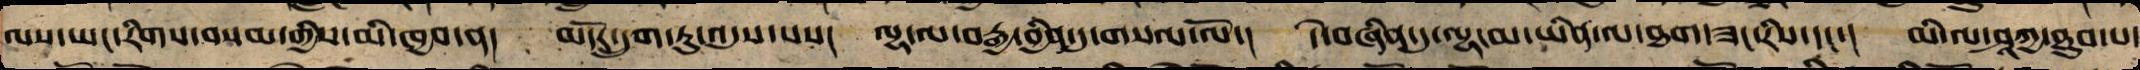ལས་ཡང་རིགས་བསམ་གྱིས་མི་ཁྱབ་ན། མདོར་དྲུག་ཏུ་འདུས་པས། ལྷ་ལ་བརྒྱ་བྱིན་དུ་གསལ་ལོ་། དེ་བཞིན་དུ་ལྷ་མ་ཡིན་ལ་ཐགས་བཟང་རིས་དང་། མི་ལ་ཤཱཀྱ་ཐུབ་པ་
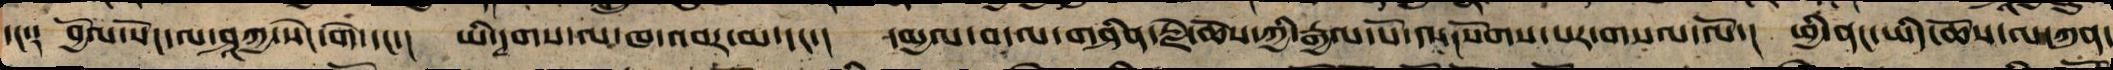དང༑ བྱོལ་སོང་ལ་ཤཱཀྱ་སེང་གེ་དང་། ཡི་དྭགས་ལ་ཁ་འབར་མ་དང་། དམྱལ་བ་ལ་གཤིན་རྗེ་ཆོས་ཀྱི་རྒྱལ་པོ་ལ་སོགས་པར་གསལ་ལོ་། ཕྱི་ནང་ཡིད་ཆོས་ལ་ཀུན་
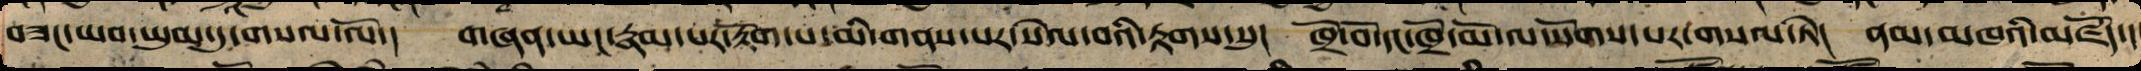བཟང་ཡབ་ཡུམ་དུ་གསལ་ལོ་། གཞན་ཡང་རྣམ་པར་རྟོག་པ་མི་གནས་པར་སེལ་བའི་རྟགས་སུ། ཁྲོ་བོ་དང་ཁྲོ་མོ་ལ་སོགས་པར་གསལ་ཏེ། ནམ་མཁའི་མཛོད་ད
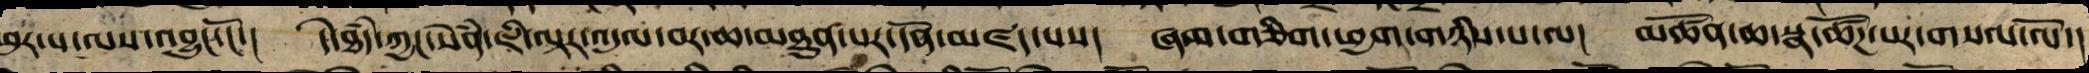ཕུར་པ་ལས་འབྱུང་ངོ་། དེ་ཐཾད་ཀྱང་སེཾན་ཇི་ལྟར་འདུལ་བར་ཆ་མཐུན་པར་དོན་མཛད་པས། ཞལ་གཅིག་ཕྱག་གཉིས་པ་ལ། མཚོན་ཆ་སྣ་ཚོཌ་པར་གསལ་ལོ་།
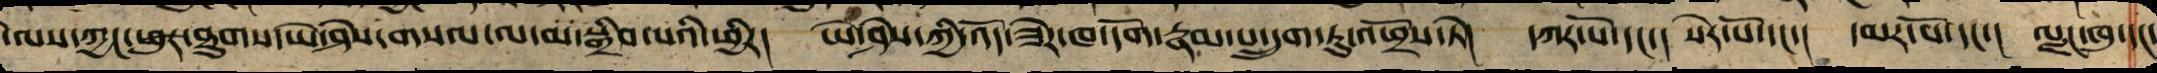དེ་ལས་ཀྱང་ཐུགས་ཡེ་ཤེས་གསལ་ལ་མ་བསྒྲིབས་པའི་ཕྱིར། ཡེ་ཤེས་ཀྱི་འོད་ཟེར་ཁ་དོག་རྣམ་པ་དྲུག་ཏུ་འཕྲོས་ཏེ། དཀར་པོ་དང་། སེར་པོ་དང་། དམར་པོ་དང་། ལྗང་གུ་དང་
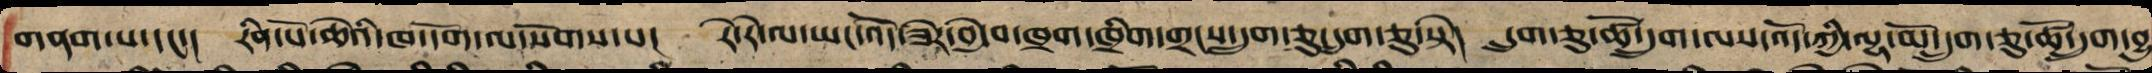གནག་པ་དང་། རིན་པོ་ཆེའི་ཁ་དོག་ལ་སོགས་པ། རེ་རེ་ལ་ཡང་འོད་ཟེར་བྱེ་བ་ཁྲག་ཁྲིག་གྲངས་དྲུག་ཅུ་དྲུག་ཅུ་སྟེ། དྲུག་ཅུ་ཚོ་དྲུག་ལས་འོད་ཀྱི་ལྷ་མོ་དྲུག་ཅུ་ཚོ་དྲུག་བྱུ
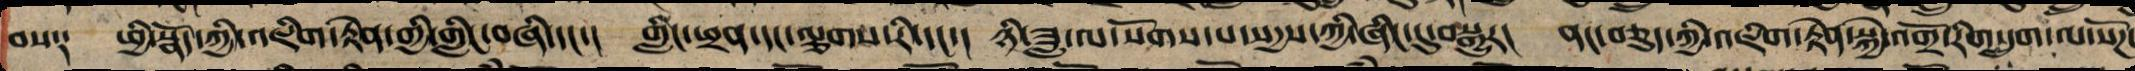བས༑ ཕྱི་སྣོད་གྱི་འཇིག་རྟེན་གྱི་གླིང་བཞི་དང་། གླིང་ཕྲན་དང་ལྕགས་རི་དང་། ཉི་ཟླ་ལ་སོགས་པ་སདྱས་ཀྱི་ཞིང་དུ་བསྒྱུར། ནང་བཅུད་ཀྱི་འཇིག་རྟེན་སྐྱེ་འགྲོ་རིག་དྲུག་ལ་སོཌ་
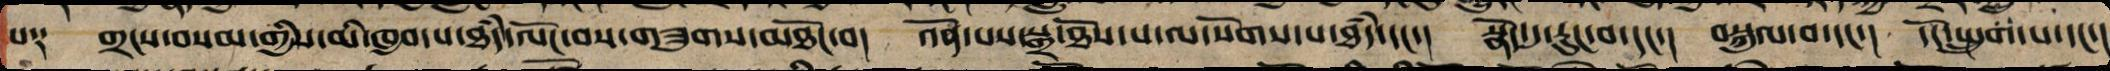པ༑ གྲངས་བསམ་གྱིས་མི་ཁྱབ་པ་ཐཾད་ལོང་བས་གཟུགས་མཐོང་བ། འོན་པས་སྒྲ་ཐོས་པ་ལ་སོགས་པ་ཐཾད་དང་། སྣོད་དུ་རུང་བ་དང་། བསྐུལ་བ་དང་། དོང་སྤྲུགས་པ་དང་།
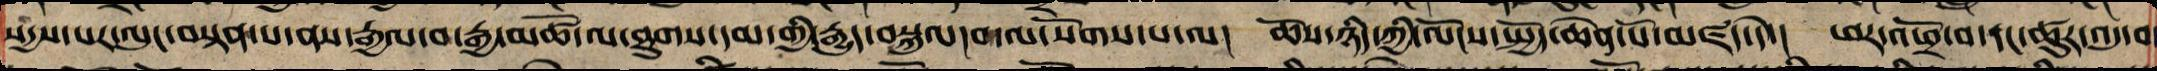སདྱས་པར་ལུང་བསྟན་པ་ནས་རྒྱལ་བ་རྒྱ་མཚོ་ལ་ཐུགས་དམ་གྱི་རྒྱུད་བསྐུལ་བ་ལ་སོགས་པ་ལ། ཆོས་ཉིད་ཀྱི་ལོངས་སྤྱོད་ཆེན་པོར་མཛད་དེ། ཕར་འཕྲོ་བ་དང་ཚུར་འདུ་བ
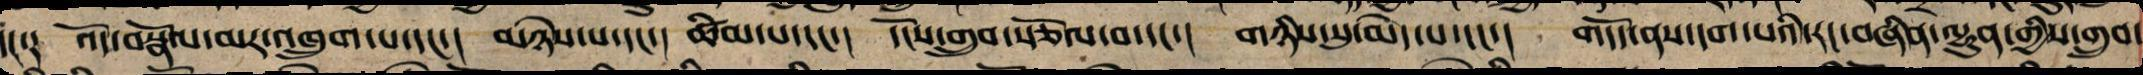དང༑ འོད་བསྣོལ་མར་འཁྲུགས་པ་དང་། མཉེས་པ་དང་། ཚིམ་པ་དང་། དངོས་གྲུབ་སྩོལ་བ་དང་། གཉིས་སུ་མེད་པ་དང་། གདོད་ནས་དག་པའི་རང་བཞིན་ལྷུན་གྱིས་གྲུབ་
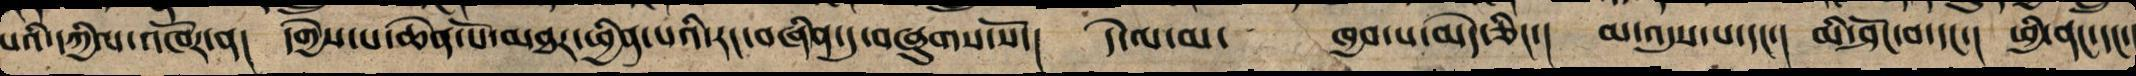པའི་དཀྱིལ་འཁོར་ན། དགྱེས་པ་ཆེན་པོ་མཐར་ཕྱིན་པའི་རང་བཞིན་དུ་བཞུགས་སོ་། དེ་ལ་མ་ཁྱབ་པ་མེད་ཅིང་། མ་འདུས་པ་དང་། མི་ཤོང་བ་དང་། ཕྱི་ནང་དང་།
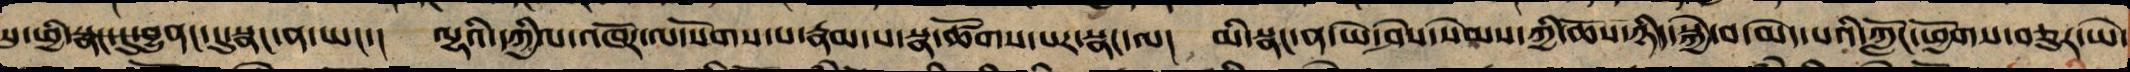སུ་ཕྱི་སྣང་དུ་བྱུནང་དུ་སྣང་ན་ཡང་།  ལྷའི་དཀྱིལ་འཁོར་ལ་སོགས་པ་རྣམ་པ་སྣ་ཚོགས་པར་སྣང་ལ་།  མི་སྣང་ན་ཡེ་ཤེས་སེམས་ཀྱི་ཆོས་ཉིད་སྐྱེ་བ་མེད་པའི་ཀློང་ཕྱོགས་བཅུར་ཡེ་
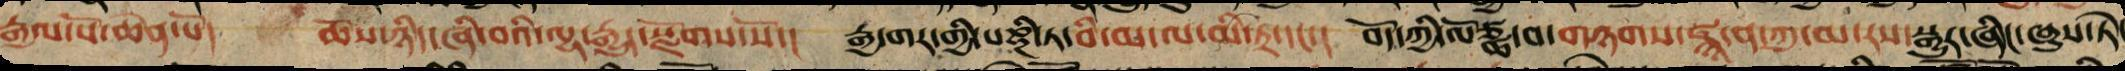རྒྱལ་པོ་ཆེན་པོ།    ཆོས་ཉིད་ཞི་བའི་ལྷ་རྒྱུད་སྫོགས་སོ་།  རྒྱ་གར་གྱི་པཎྜི་ཏ་བི་མ་ལ་མི་ཏྲ་དང་།  བོད་ཀྱི་ལོཙྪ་བ་གཉགས་ཛྙཱ་ན་ཀུ་མ་རས་སྒྱུར་ཞིང་ཞུས་ཏེ་
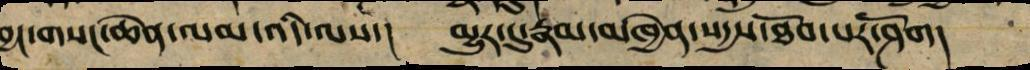བྱང་གསང་ཆེན་ལམ་འདི་ལས་།  མྱུར་དུ་རྣམ་མཁྱེན་སདྱས་ཐོབ་པར་ཤོག།
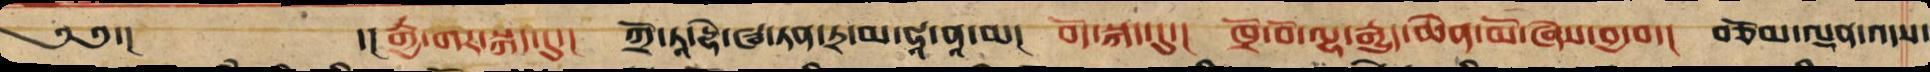༄༅་། ་།རྒྱ་གར་སྐད་དུ། ཀྲོ་ཏཱ་དྷེ་ཝ་ཏན་ཏྲ་མ་ཧཱ་ནཱ་མ། བོད་སྐད་དུ། ཁྲོ་བོ་ལྷ་རྒྱུད་ཆེན་མོ་ཞེས་བྱ་བ་། བཅོམ་ལྡན་འདས་
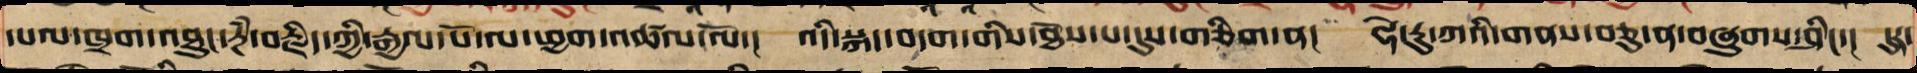དཔལ་ཁྲག་འཐུང་རྔཾ་བརྗིད་ཀྱི་རྒྱལ་པོ་ལ་ཕྱག་འཚལ་ལོ་། འདི་སྐད་བདག་གིས་ཐོས་པའི་དུས་གཅིག་ན། ཧེ་རུ་ཀའི་གནས་བཅུ་ན་བཞུགས་ཤིང་། དུར་
